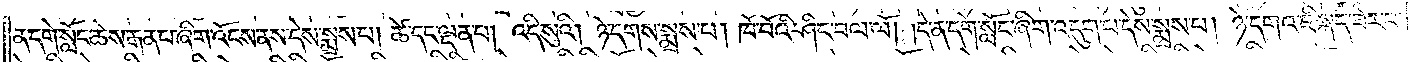ན་དགེ་སློང་ཆེས་རྒན་པ་ཞིག་འོངས་ནས་དེས་སྨྲས་པ། ཚེ་དང་ལྡན་པ། འདི་སུའི། ཉེ་དགས་སྨྲས་པ། ཁོ་བོའི་ཤིང་བལ་ལོ། །དེ་ན་དགེ་སློང་ཞིག་འདུག་པ་དེས་སྨྲས་པ། ཉེ་དགའ་ཇི་སྐད་ཟེར་བ་
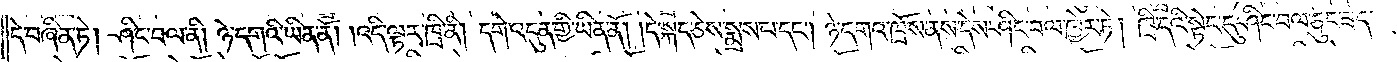དེ་བཞིན་ཏེ། ཤིང་བལ་ནི། ཉེ་དགའི་ཡིན་ནོ། །འདི་ལྟར་ཁྲི་ནི། དགེ་འདུན་གྱི་ཡིན་ནོ། །དེ་སྐད་ཅེས་སྨྲས་པ་དང༌། ཉེ་དགའ་ཁྲོས་ནས་དེས་ཤིང་བལ་ཁྱེར་ཏེ། ཁྲི་དའི་སྟེང་དུ་ཤིང་བལ་ཅུང་ཟད་
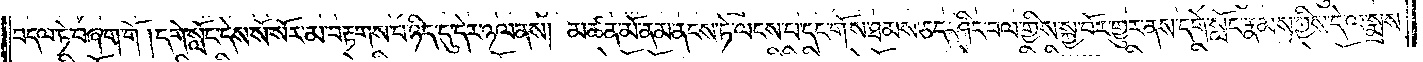བདལ་ཏེ་བཞག་གོ །དགེ་སློང་དེས་སོ་སོར་མ་བརྟགས་པ་ཉིད་དུ་དེར་ཉལ་ནས། མཚན་མོ་ནམ་ནངས་ཏེ་ལངས་པ་དང་གོས་ཐམས་ཅད་ཤིང་བལ་གྱིས་སྐྱ་བོར་གྱུར་ནས་དགེ་སློང་རྣམས་ཀྱིས་དེ་ལ་སྨྲས་
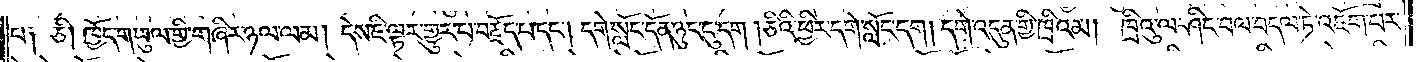པ༑ ཅི། ཁྱོད་གཡུལ་གྱི་གཞིར་ཉལ་ལམ། དེས་ཇི་ལྟར་གྱུར་པ་བརྗོད་པ་དང༌། དགེ་སློང་དོན་ཉུང་ངུ་དག །ཅིའི་ཕྱིར་དགེ་སློང་དག། དགེ་འདུན་གྱི་ཁྲིའམ། ཁྲིའུ་ལ་ཤིང་བལ་བདལ་ཏེ་འཇོག་པར་
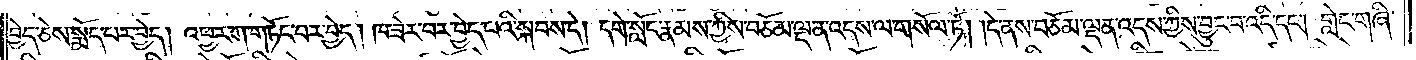བྱེད་ཅེས་སྨོད་པར་བྱེད། འཕྱར་ཀ་གཏོང་བར་བྱེད། ཁ་ཟེར་བར་བྱེད་པའི་སྐབས་དེ། དགེ་སློང་རྣམས་ཀྱིས་བཅོམ་ལྡན་འདས་ལ་གསོལ་ཏོ། །དེ་ནས་བཅོམ་ལྡན་འདས་ཀྱིས་བྱུང་བ་འདི་དང༌། གླེང་གཞི་
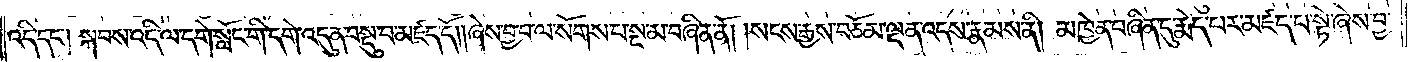འདི་དང༌། སྐབས་འདི་ལ་དགེ་སློང་གི་དགེ་འདུན་བསྡུ་བ་མཛད་དོ། །ཞེས་བྱ་བ་ལ་སོགས་པ་སྔ་མ་བཞིན་ནོ། །སངས་རྒྱས་བཅོམ་ལྡན་འདས་རྣམས་ནི། མཁྱེན་བཞིན་དུ་རྨེད་པར་མཛད་པ་སྟེ་ཞེས་བྱ་
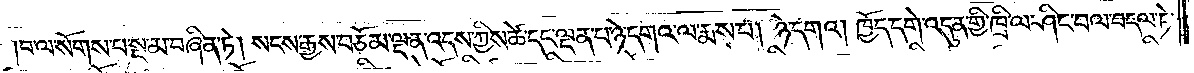།བ་ལ་སོགས་པ་སྔ་མ་བཞིན་ཏེ། སངས་རྒྱས་བཅོམ་ལྡན་འདས་ཀྱིས་ཚེ་དང་ལྡན་པ་ཉེ་དགའ་ལ་རྨས་པ། ཉེ་དགའ། ཁྱོད་དགེ་འདུན་གྱི་ཁྲི་ལ་ཤིང་བལ་བདལ་ཏེ་
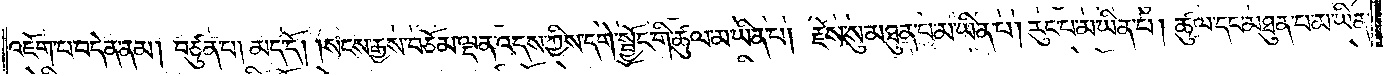འཇོག་པ་བདེན་ནམ། བཙུན་པ། མད་དོ། །སངས་རྒྱས་བཅོམ་ལྡན་འདས་ཀྱིས་དགེ་སྦྱོང་གི་ཚུལ་མ་ཡིན་པ། རྗེས་སུ་མཐུན་པ་མ་ཡིན་པ། རུང་པ་མ་ཡིན་པ། ཚུལ་དང་མཐུན་པ་མ་ཡིན་
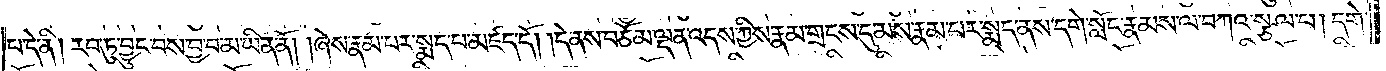པ་དེ་ནི། རབ་ཏུ་བྱུང་བས་བྱ་བ་མ་ཡིན་ནོ། །ཞེས་རྣམ་པར་སྨད་པ་མཛད་དོ། །དེ་ནས་བཅོམ་ལྡན་འདས་ཀྱིས་རྣམ་གྲངས་དུ་མས་རྣམ་པར་སྨད་ནས་དགེ་སློང་རྣམས་ལ་བཀའ་སྩལ་པ། དགེ་
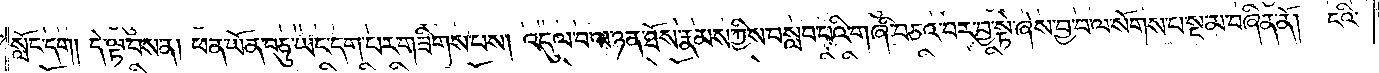སློང་དག། དེ་ལྟ་བས་ན། ཕན་ཡོན་བཅུ་ཡང་དག་པར་གཟིགས་པས། འདུལ་བ་ལ་ཉན་ཐོས་རྣམས་ཀྱིས་བསླབ་པའི་གཞི་བཅའ་བར་བྱ་སྟེ་ཞེས་བྱ་བ་ལ་སོགས་པ་སྔ་མ་བཞིན་ནོ། ངའི་
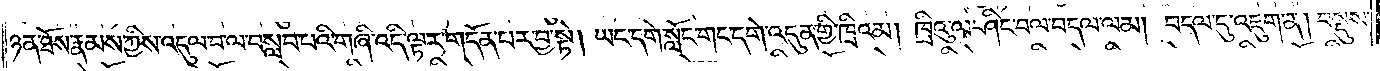ཉན་ཐོས་རྣམས་ཀྱིས་འདུལ་བ་ལ་བསླབ་པའི་གཞི་འདི་ལྟར་གདོན་པར་བྱ་སྟེ། ཡང་དགེ་སློང་གང་དགེ་འདུན་གྱི་ཁྲིའམ། ཁྲིའུ་ལ་ཤིང་བལ་བདལ་ལམ། བདལ་དུ་འཇུག་ན། བསྡུས་
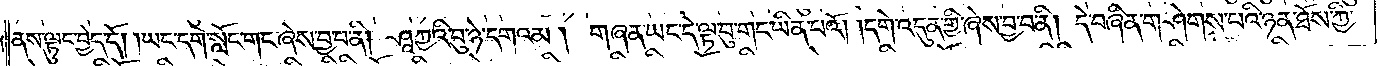ནས་ལྟུང་བྱེད་དོ། །ཡང་དགེ་སློང་གང་ཞེས་བྱ་བ་ནི། ཤཱཀྱའི་བུ་ཉེ་དགའམ། གཞན་ཡང་དེ་ལྟ་བུ་གང་ཡིན་པའོ། །དགེ་འདུན་གྱི་ཞེས་བྱ་བ་ནི། དེ་བཞིན་གཤེགས་པའི་ཉན་ཐོས་ཀྱི་
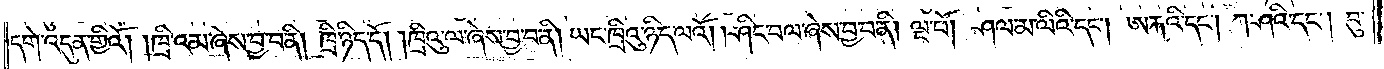དགེ་འདུན་གྱིའོ། །ཁྲི་འམ་ཞེས་བྱ་བ་ནི། ཁྲི་ཉིད་དོ། །ཁྲིའུ་ལ་ཞེས་བྱ་བ་ནི། ཡང་ཁྲིའུ་ཉིད་ལའོ། །ཤིང་བལ་ཞེས་བྱ་བ་ནི། ལྔ་པོ། ཤལ་མ་ལིའི་དང༌། ཨརྐའི་དང༌། ཀ་ཤའི་དང༌། བུ་
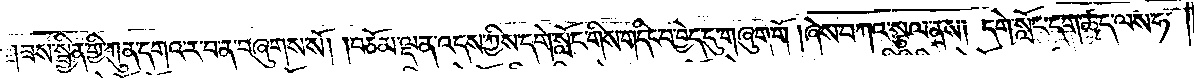ཟས་སྦྱིན་གྱི་ཀུན་དགའ་ར་བ་ན་བཞུགས་སོ། །བཅོམ་ལྡན་འདས་ཀྱིས་དགེ་སློང་གིས་གདིང་བ་བྱེད་དུ་གཞུག་གོ །ཞེས་བཀའ་སྩལ་ནས། དགེ་སློང་དག་ཚད་ལས་ཧ་
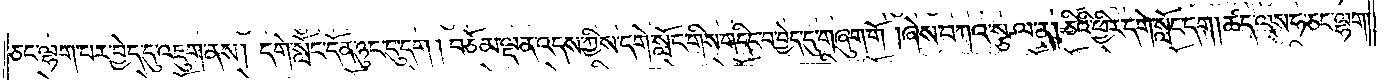ཅང་ལྷག་པར་བྱེད་དུ་འཇུག་ནས། དགེ་སློང་དོན་ཉུང་ངུ་དག། བཅོམ་ལྡན་འདས་ཀྱིས་དགེ་སློང་གིས་གདིང་བ་བྱེད་དུ་གཞུག་གོ །ཞེས་བཀའ་སྩལ་ན། ཅིའི་ཕྱིར་དགེ་སློང་དག །ཚད་ལས་ཧ་ཅང་ལྷག་
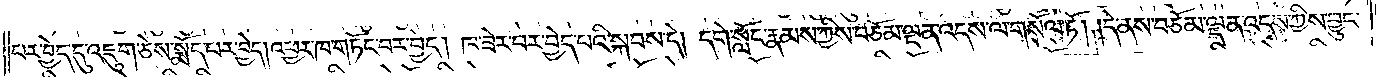པར་བྱེད་དུ་འཇུག་ཅེས་སྨོད་པར་བྱེད། འཕྱར་ཁ་གཏོང་བར་བྱེད། ཁ་ཟེར་བར་བྱེད་པའི་སྐབས་དེ། དགེ་སློང་རྣམས་ཀྱིས་བཅོམ་ལྡན་འདས་ལ་གསོལ་ཏོ། །དེ་ནས་བཅོམ་ལྡན་འདས་ཀྱིས་བྱུང་
